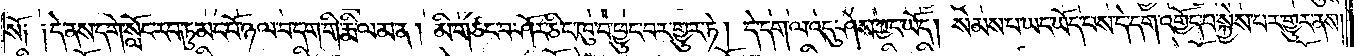སོ༑ ༑དེ་ནས་དགེ་སློང་རབ་ཏུ་མང་པོ་ཉལ་བ་དག་གི་རྨི་ལམ་ན། མི་གཙང་བ་ཤོར་ཅིང་ཁུ་བ་ཕྱུང་བར་གྱུར་ཏེ། དེ་དག་ལ་འདུ་ཤེས་ཀྱང་ཡོད། སེམས་པ་ཡང་ཡོད་པས་དེ་དག་འགྱོད་པ་སྐྱེས་པར་གྱུར་ནས།
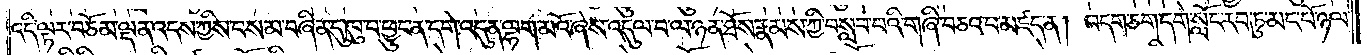འདི་ལྟར་བཅོམ་ལྡན་འདས་ཀྱིས་བསམ་བཞིན་དུ་ཁུ་བ་ཕྱུང་ན་དགེ་འདུན་ལྷག་མའོ་ཞེས་འདུལ་བ་ལ་ཉན་ཐོས་རྣམས་ཀྱིས་བསླབ་པའི་གཞི་བཅའ་བ་མཛད་ན། བདག་ཅག་དགེ་སློང་རབ་ཏུ་མང་པོ་ཉལ་
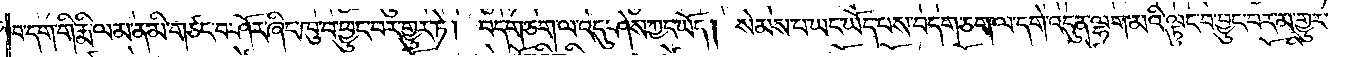བ་དག་གི་རྨི་ལམ་ན་མི་གཙང་བ་ཤོར་ཞིང་ཁུ་བ་ཕྱུང་བ་གྱུར་ཏེ། བདག་ཅག་ལ་འདུ་ཤེས་ཀྱང་ཡོད། སེམས་པ་ཡང་ཡོད་པས་བདག་ཅག་ལ་དགེ་འདུན་ལྷག་མའི་ལྟུང་བ་བྱུང་བར་མ་གྱུར་
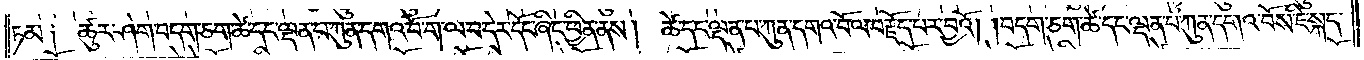ཏམ༑ ཚུར་ཤེག་བདག་ཅག་ཚེ་དང་ལྡན་པ་ཀུན་དགའ་བོ་ག་ལ་བ་དེར་དོང་ཞིང་ཕྱིན་ནས། ཚེ་དང་ལྡན་པ་ཀུན་དགའ་བོ་ལ་བརྗོད་པར་བྱའོ། །བདག་ཅག་ཚེ་དང་ལྡན་པ་ཀུན་དགའ་བོས་ཇི་སྐད་
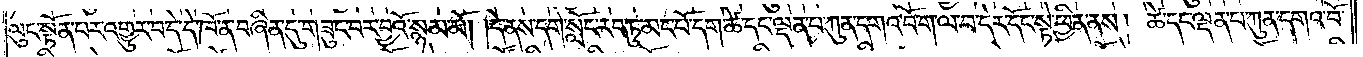ལུང་སྟོན་པར་འགྱུར་བ་དེ་དེ་ཁོ་ན་བཞིན་དུ་གཟུང་བར་བྱའོ་སྙམ་མོ། །དེ་ནས་དགེ་སློང་རབ་ཏུ་མང་པོ་དག་ཚེ་དང་ལྡན་པ་ཀུན་དགའ་བོ་ག་ལ་བ་དེར་དོང་སྟེ་ཕྱིན་ནས། ཚེ་དང་ལྡན་པ་ཀུན་དགའ་བོ་
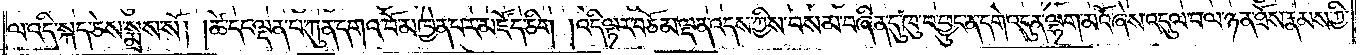ལ་འདི་སྐད་ཅེས་སྨྲས་སོ། །ཚེ་དང་ལྡན་པ་ཀུན་དགའ་བོ་མཁྱེན་པར་མཛོད་ཅིག །འདི་ལྟར་བཅོམ་ལྡན་འདས་ཀྱིས་བསམ་བཞིན་དུ་ཁུ་བ་ཕྱུང་ན་དགེ་འདུན་ལྷག་མའོ་ཞེས་འདུལ་བ་ལ་ཉན་ཐོས་རྣམས་ཀྱི་
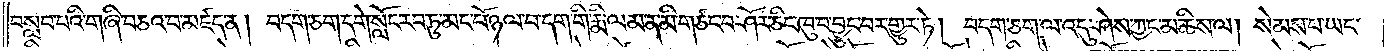བསླབ་པའི་གཞི་བཅའ་བ་མཛད་ན། བདག་ཅག་དགེ་སློང་རབ་ཏུ་མང་པོ་ཉལ་བ་དག་གི་རྨི་ལམ་ན་མི་གཙང་བ་ཤོར་ཅིང་ཁུ་བ་བྱུང་བར་གྱུར་ཏེ། བདག་ཅག་ལ་འདུ་ཤེས་ཀྱང་མཆིས་ལ། སེམས་པ་ཡང་
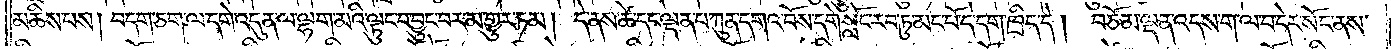མཆིས་པས། བདག་ཅག་ལ་དགེ་འདུན་ལ་ལྷག་མའི་ལྟུང་བ་བྱུང་བར་མ་གྱུར་ཏམ། དེ་ནས་ཚེ་དང་ལྡན་པ་ཀུན་དགའ་བོས་དགེ་སློང་རབ་ཏུ་མང་པོ་དེ་དག་ཁྲིད་དེ། བཅོམ་ལྡན་འདས་ག་ལ་བ་དེར་སོང་ནས་
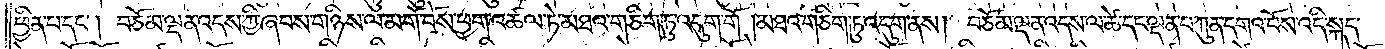ཕྱིན་པ་དང༌། བཅོམ་ལྡན་འདས་ཀྱི་ཞབས་གཉིས་ལ་མགོ་བོས་ཕྱག་འཚལ་ཏེ་མཐའ་གཅིག་ཏུ་འདུག་གོ །མཐའ་གཅིག་ཏུ་འདུག་ནས། བཅོམ་ལྡན་འདས་ལ་ཚེ་དང་ལྡན་པ་ཀུན་དགའ་བོས་འདི་སྐད་
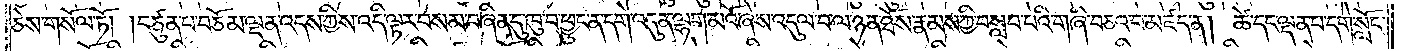ཅེས་གསོལ་ཏོ། །བཙུན་པ་བཅོམ་ལྡན་འདས་ཀྱིས་འདི་ལྟར་བསམ་བཞིན་དུ་ཁུ་བ་ཕྱུང་ན་དགེ་འདུན་ལྷག་མའོ་ཞེས་འདུལ་བ་ལ་ཉན་ཐོས་རྣམས་ཀྱི་བསླབ་པའི་གཞི་བཅའ་བ་མཛད་ན། ཚེ་དང་ལྡན་པ་དགེ་སློང་
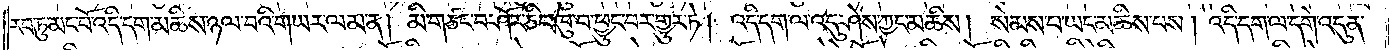རབ་ཏུ་མང་པོ་འདི་དག་མཆིས་ཉལ་བའི་གཡར་ལམ་ན། མི་གཙང་བ་ཤོར་ཅིང་ཁུ་བ་ཕྱུང་བར་གྱུར་ཏེ། འདི་དག་ལ་འདུ་ཤེས་ཀྱང་མཆིས། སེམས་པ་ཡང་མཆིས་པས། འདི་དག་ལ་དགེ་འདུན་
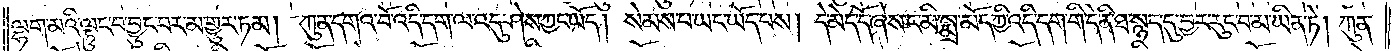ལྷག་མའི་ལྟུང་བ་བྱུང་བར་མ་གྱུར་ཏམ། ཀུན་དགའ་བོ་འདི་དག་ལ་འདུ་ཤེས་ཀྱང་ཡོད། སེམས་པ་ཡང་ཡོད་པས། དེ་མེད་དོ་ཞེས་ང་མི་སྨྲ་མོད་ཀྱི་འདི་དག་གི་དེ་ནི་ཐ་སྙད་དུ་བྱར་རུང་བ་མ་ཡིན་ཏེ། ཀུན་
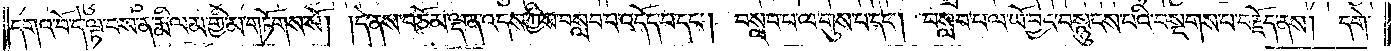དགའ་བོ་དེ་ལྟ་བས་ན་རྨི་ལམ་གྱི་མ་གཏོགས་སོ། །དེ་ནས་བཅོམ་ལྡན་འདས་ཀྱིས་བསླབ་པ་འདོད་པ་དང༌། བསླབ་པ་ལ་གུས་པ་དང༌། བསླབ་པ་ལ་ཡོ་བྱད་བསྙུངས་པའི་བསྔགས་པ་བརྗོད་ནས།<gap>དགེ་
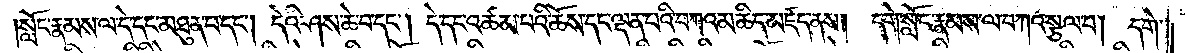སློང་རྣམས་ལ་དེ་དང་མཐུན་པ་དང༌། དེའི་ཤས་ཆེ་བ་དང༌། དེ་དང་འཚམ་པའི་ཆོས་དང་ལྡན་པའི་བཀའ་མཆིད་མཛད་ནས། དགེ་སློང་རྣམས་ལ་བཀའ་སྩལ་པ། དགེ་
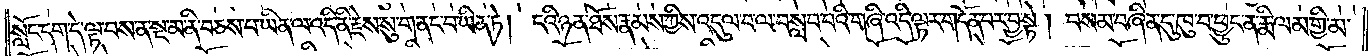སློང་དག་དེ་ལྟ་བས་ན་སྔ་མ་ནི་བཅས་པ་ཡིན་ལ་འདི་ནི་རྗེས་སུ་གནང་བ་ཡིན་ཏེ། ངའི་ཉན་ཐོས་རྣམས་ཀྱིས་འདུལ་བ་ལ་བསླབ་པའི་གཞི་འདི་ལྟར་གདོན་པར་བྱ་སྟེ། བསམ་བཞིན་དུ་ཁུ་བ་ཕྱུང་ན་རྨི་ལམ་གྱི་མ་
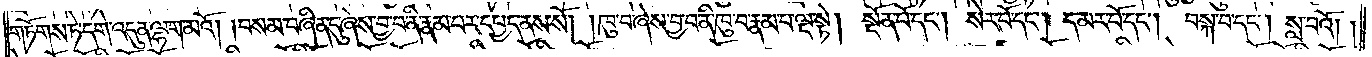གཏོགས་ཏེ་དགེ་འདུན་ལྷག་མའོ། །བསམ་བཞིན་དུ་ཞེས་བྱ་བ་ནི་རྣམ་པར་དཔྱད་ནས་སོ། །ཁུ་བ་ཞེས་བྱ་བ་ནི་ཁུ་བ་རྣམ་པ་ལྔ་སྟེ། སྔོན་པོ་དང༌། སེར་པོ་དང༌། དམར་པོ་དང༌། བསྐ་བ་དང༌། སླ་བའོ། །
